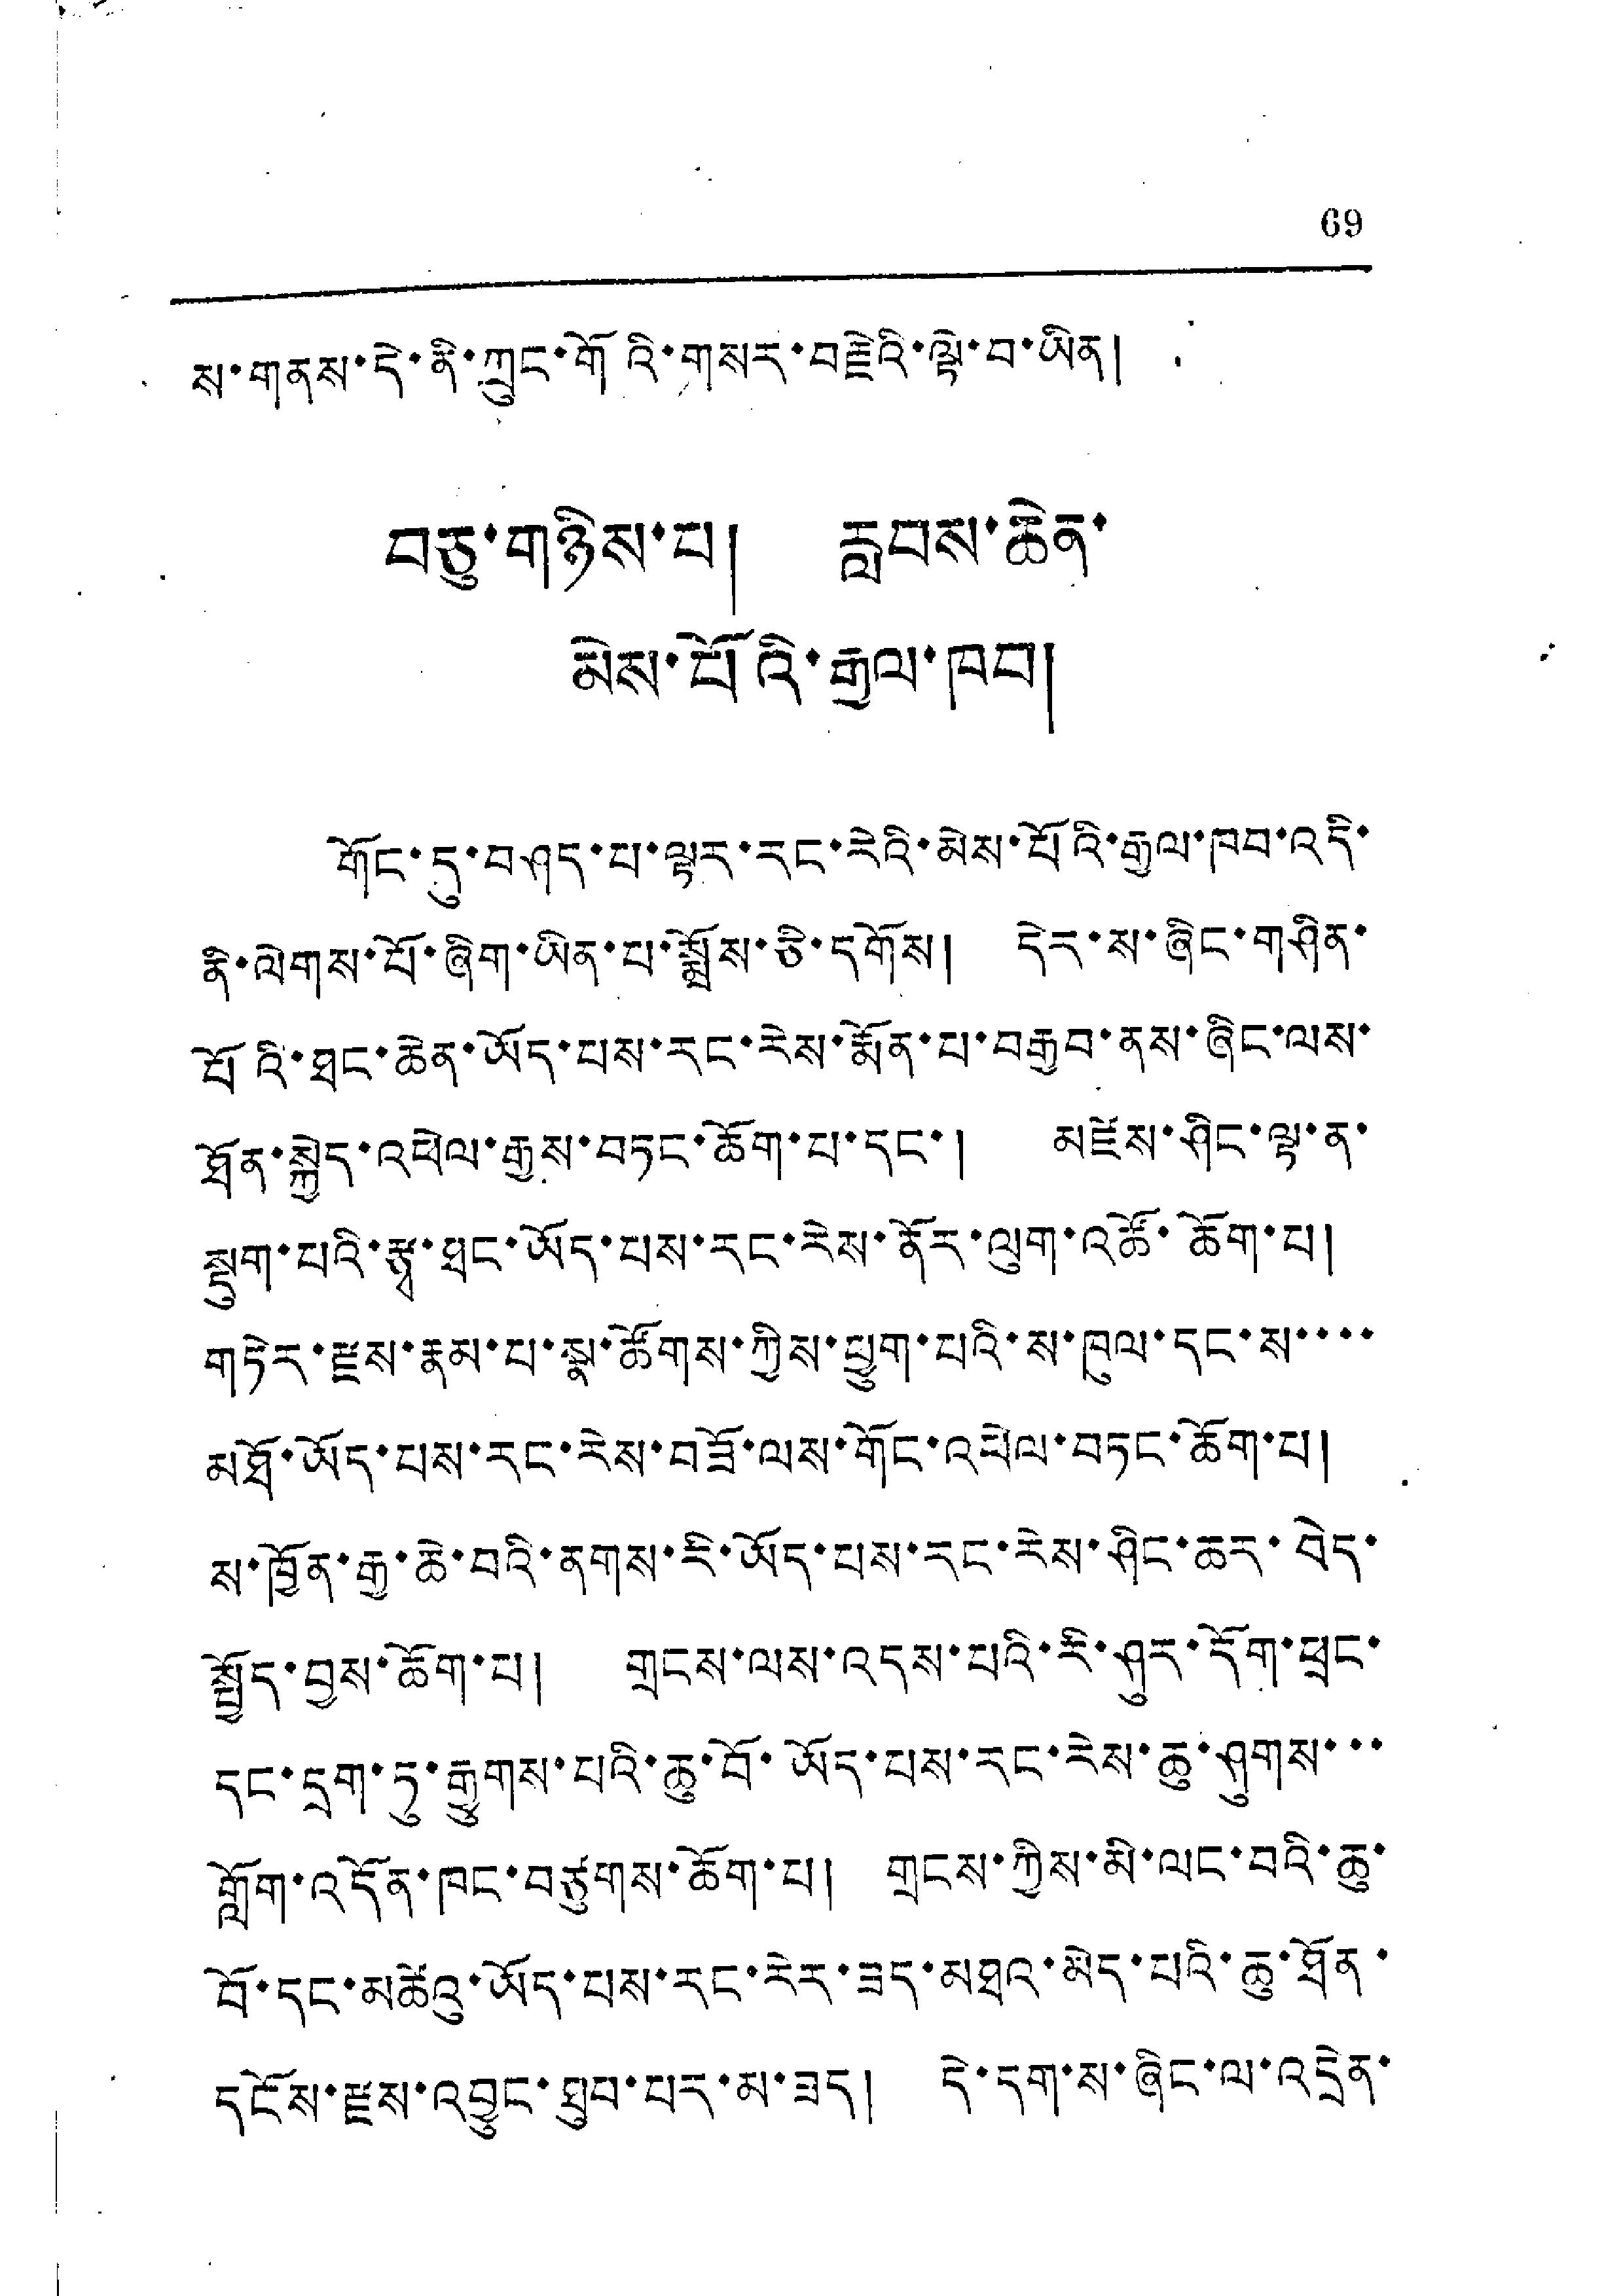69
ས་གནས་དེ་ནི་ཀྲུང་གོའི་གསར་བརྗེའི་ལྟེ་བ་ཡིན།
བཅུ་གཉིས་པ། རླབས་ཆེན་
མེས་པོའི་རྒྱལ་ཁབ།
གོང་དུ་བཤད་པ་ལྟར་རང་རེའི་མེས་པོའི་རྒྱལ་ཁབ་འདི་
ནི་ལེགས་པོ་ཞིག་ཡིན་པ་སྨྲོས་ཅི་དགོས། དེར་ས་ཞིང་གཤིན་
པོའི་ཐང་ཆེན་ཡོད་པས་རང་རེས་རྨོན་པ་བརྒྱབ་ནས་ཞིང་ལས་
ཐོན་སྐྱེད་འཕེལ་རྒྱས་བཏང་ཆོག་པ་དང་། མཛེས་ཤིང་ལྟ་ན་
སྡུག་པའི་རྩྭ་ཐང་ཡོད་པས་རང་རེས་ནོར་ལུག་འཚོ་ཆོག་པ།
གཏེར་རྫས་རྣམ་པ་སྣ་ཚོགས་ཀྱིས་ཕྱུག་པའི་ས་ཁུལ་དང་ས་་་་
མཐོ་ཡོད་པས་རང་རེས་བཟོ་ལས་གོང་འཕེལ་བཏང་ཆོག་པ།
ས་ཁྱོན་རྒྱ་ཆེ་བའི་ནགས་རི་ཡོད་པས་རང་རེས་ཤིང་ཆར་བེད་
སྤྱོད་བྱས་ཆོག་པ། གྲངས་ལས་འདས་པའི་རི་ཤུར་དོག་ཕྲང་
དང་དྲག་ཏུ་རྒྱུགས་པའི་ཆུ་བོ་ཡོད་པས་རང་རེས་ཆུ་ཤུགས་་་
ཀློག་འདོན་ཁང་བཙུགས་ཆོག་པ། གྲངས་ཀྱིས་མི་ལང་བའི་ཆུ་
བོ་དང་མཚེའུ་ཡོད་པས་རང་རེར་ཟད་མཐའ་མེད་པའི་ཆུ་ཐོན་
དངོས་རྫས་འབྱུང་ཐུབ་པར་མ་ཟད། དེ་དག་ས་ཞིང་ལ་འདྲེན་
